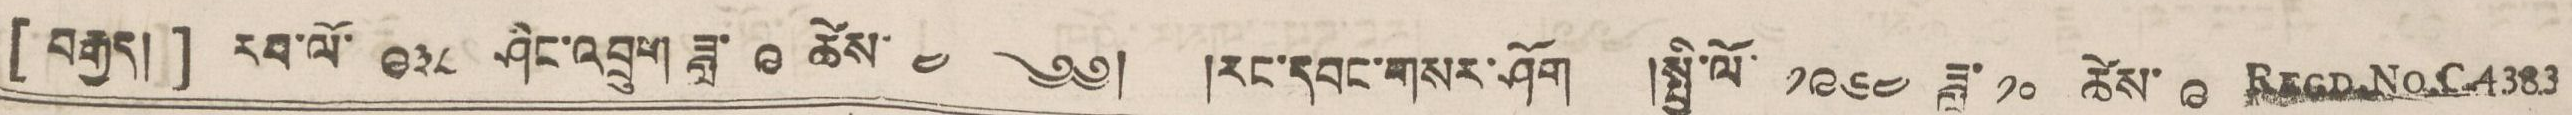[ བརྒྱད། ] རབ་ལོ་ ༩༣༨ ཤིང་འབྲུག་ ཟླ་ ༩ ཚེས ༤ ༄༅། །རང་དབང་གསར་ཤོག །སྤྱི་ལོ་ ༡༩༦༤ ཟླ་ ༡༠ ཚེས་ ༩ REGD. NO. C4383
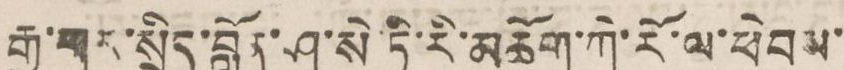རྒྱ་གར་སྲིད་བློན་ཤ་སེ་ཏི་རི་མཆོག་ཀེ་རོ་ལ་ཕེབས་
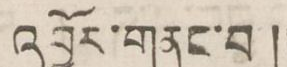འབྱོར་གནང་བ །
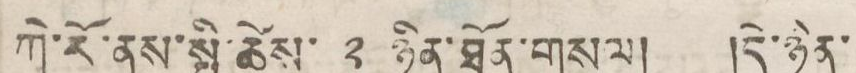ཀེ་རོ་ནས་སྤྱི་ཚེས་ ༢ ཉིན་ཐོན་གསལ། །དེ་ཉིན་
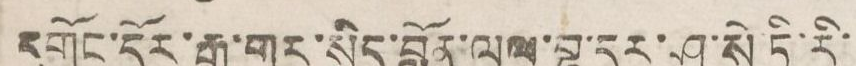དགོང་དྲོར་རྒྱ་གར་སྲིད་བློན་ལཱལ་བྷ་དུར་ཤ་སེ་ཏི་རི་
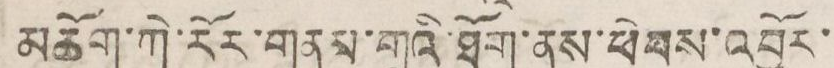མཆོག་ཀེ་རོར་གནམ་གྲུའི་ཐོག་ནས་ཕེབས་འབྱོར་
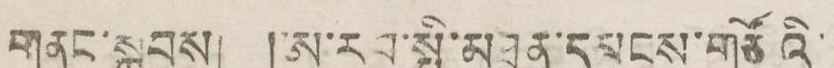གནང་སྐབས། །ཨ་རབ་སྤྱི་མཐུན་དམངས་གཙོའི་
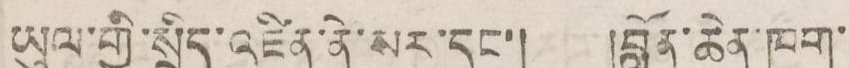ཡུལ་གྱི་སྲིད་འཛིན་ནེ་སར་དང་། །བློན་ཆེན་ཁག་
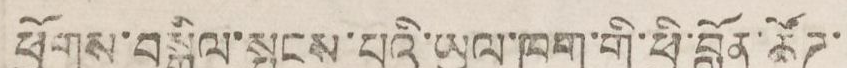ཕྱོགས་བསྒྲིལ་སྤངས་པའི་ཡུལ་ཁག་གི་ཕྱི་བློན་ཚོཊ་
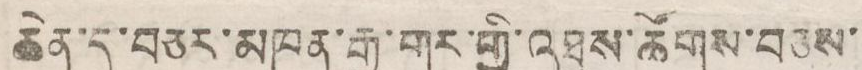ཆེན་དུ་བཅར་མཁན་རྒྱ་གར་གྱི་འཐུས་ཚོགས་བཅས་
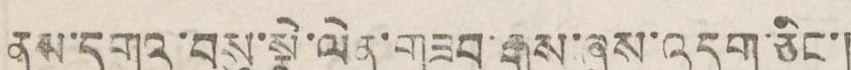ནས་དགའ་བསུ་སྣེ་ལེན་གཟབ་རྒྱས་ཞུས་འདུག་ཅིང་།
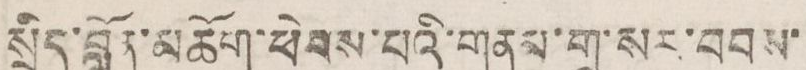སྲིད་བློན་མཆོག་ཕེབས་པའི་གནས་གྲུ་སར་བབས་
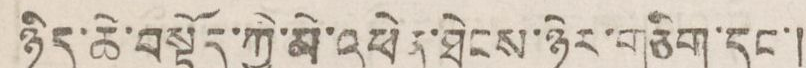ཉིད་ཆེ་བསྟོད་ཀྱི་མེ་འཕེན་ཐེངས་ཉེར་གཅིག་དང་།
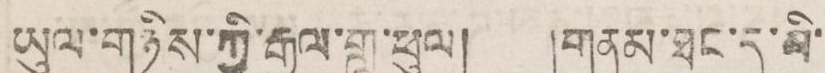ཡུལ་གཉིས་ཀྱི་རྒྱལ་གླུ་ཕུལ། །གནམ་ཐང་དུ་མི་
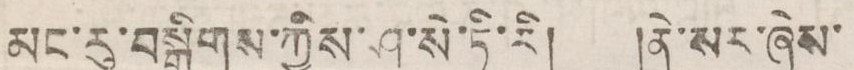མང་རུ་བསྒྲིགས་ཀྱིས་ཤ་སེ་ཏི་རི། །ནེ་སར་ཞེས་
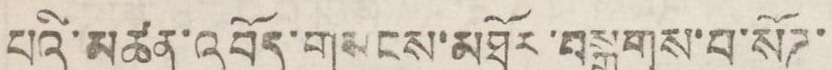པའི་མཚན་འབོད་གསངས་མཐོར་བསྒྲགས་པ་སོཊ་
